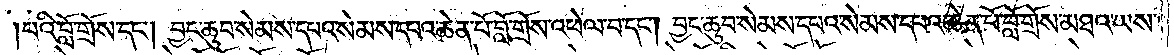པའི་བློ་གྲོས་དང༌། བྱང་ཆུབ་སེམས་དཔའ་སེམས་དཔའ་ཆེན་པོ་བློ་གྲོས་འཕེལ་བ་དང༌། བྱང་ཆུབ་སེམས་དཔའ་སེམས་དཔའ་ཆེན་པོ་བློ་གྲོས་མཐའ་ཡས་
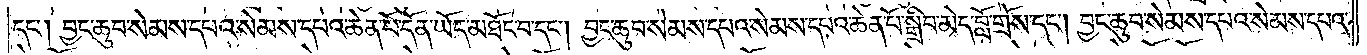དང༌། བྱང་ཆུབ་སེམས་དཔའ་སེམས་དཔའ་ཆེན་པོ་དོན་ཡོད་མཐོང་བ་དང༌། བྱང་ཆུབ་སེམས་དཔའ་སེམས་དཔའ་ཆེན་པོ་སྒྲིབ་མེད་བློ་གྲོས་དང༌། བྱང་ཆུབ་སེམས་དཔའ་སེམས་དཔའ་
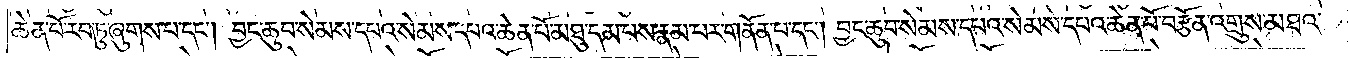ཆེན་པོ་རབ་ཏུ་ཞུགས་པ་དང༌། བྱང་ཆུབ་སེམས་དཔའ་སེམས་དཔའ་ཆེན་པོ་མཐུ་དམ་པས་རྣམ་པར་གནོན་པ་དང༌། བྱང་ཆུབ་སེམས་དཔའ་སེམས་དཔའ་ཆེན་པོ་བརྩོན་འགྲུས་མཐའ་
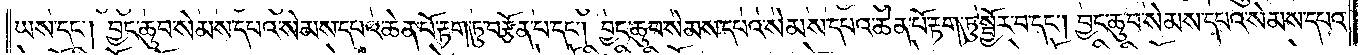ཡས་དང༌། བྱང་ཆུབ་སེམས་དཔའ་སེམས་དཔའ་ཆེན་པོ་རྟག་ཏུ་བརྩོན་པ་དང༌། བྱང་ཆུབ་སེམས་དཔའ་སེམས་དཔའ་ཆེན་པོ་རྟག་ཏུ་སྦྱོར་བ་དང༌། བྱང་ཆུབ་སེམས་དཔའ་སེམས་དཔའ་
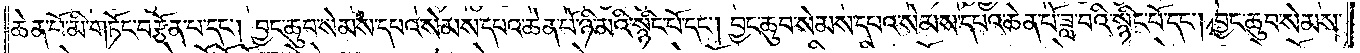ཆེན་པོ་མི་གཏོང་བརྩོན་པ་དང༌། བྱང་ཆུབ་སེམས་དཔའ་སེམས་དཔའ་ཆེན་པོ་ཉི་མའི་སྙིང་པོ་དང༌། བྱང་ཆུབ་སེམས་དཔའ་སེམས་དཔའ་ཆེན་པོ་ཟླ་བའི་སྙིང་པོ་དང༌། བྱང་ཆུབ་སེམས་
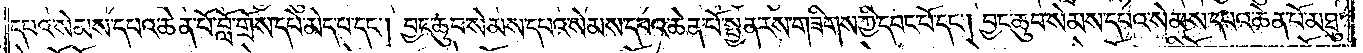དཔའ་སེམས་དཔའ་ཆེན་པོ་བློ་གྲོས་དཔེ་མེད་པ་དང༌། བྱང་ཆུབ་སེམས་དཔའ་སེམས་དཔའ་ཆེན་པོ་སྤྱན་རས་གཟིགས་ཀྱི་དབང་པོ་དང༌། བྱང་ཆུབ་སེམས་དཔའ་སེམས་དཔའ་ཆེན་པོ་མཐུ་
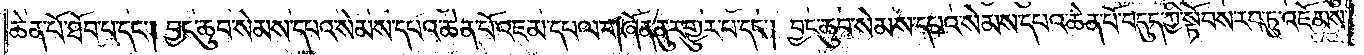ཆེན་པོ་ཐོབ་པ་དང༌། བྱང་ཆུབ་སེམས་དཔའ་སེམས་དཔའ་ཆེན་པོ་འཇམ་དཔལ་གཞོན་ནུར་གྱུར་པ་དང༌། བྱང་ཆུབ་སེམས་དཔའ་སེམས་དཔའ་ཆེན་པོ་བདུད་ཀྱི་སྟོབས་རབ་ཏུ་འཇོམས་
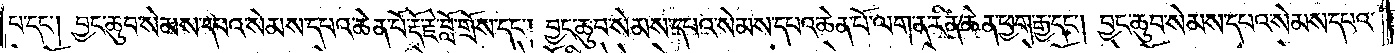པ་དང༌། བྱང་ཆུབ་སེམས་དཔའ་སེམས་དཔའ་ཆེན་པོ་རྡོ་རྗེ་བློ་གྲོས་དང༌། བྱང་ཆུབ་སེམས་དཔའ་སེམས་དཔའ་ཆེན་པོ་ལག་ན་རིན་ཆེན་ཕྱག་རྒྱ་དང༌། བྱང་ཆུབ་སེམས་དཔའ་སེམས་དཔའ་
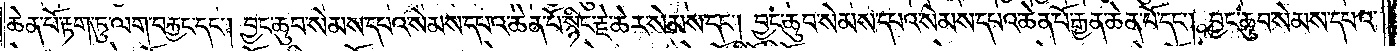ཆེན་པོ་རྟག་ཏུ་ལག་བརྐྱང་དང༌། བྱང་ཆུབ་སེམས་དཔའ་སེམས་དཔའ་ཆེན་པོ་སྙིང་རྗེ་ཆེར་སེམས་དང༌། བྱང་ཆུབ་སེམས་དཔའ་སེམས་དཔའ་ཆེན་པོ་རྒྱན་ཆེན་པོ་དང༌། བྱང་ཆུབ་སེམས་དཔའ་
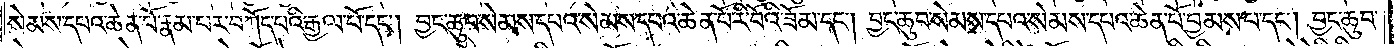སེམས་དཔའ་ཆེན་པོ་རྣམ་པར་བཀོད་པའི་རྒྱལ་པོ་དང༌། བྱང་ཆུབ་སེམས་དཔའ་སེམས་དཔའ་ཆེན་པོ་རི་བོའི་ཟོམ་དང༌། བྱང་ཆུབ་སེམས་དཔའ་སེམས་དཔའ་ཆེན་པོ་བྱམས་པ་དང༌། བྱང་ཆུབ་
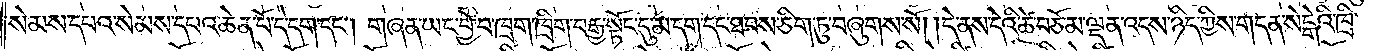སེམས་དཔའ་སེམས་དཔའ་ཆེན་པོ་དེ་དག་དང༌། གཞན་ཡང་བྱེ་བ་ཁྲག་ཁྲིག་བརྒྱ་སྟོང་དུ་མ་དག་དང་ཐབས་ཅིག་ཏུ་བཞུགས་སོ། །དེ་ནས་དེའི་ཚེ་བཅོམ་ལྡན་འདས་ཉིད་ཀྱིས་གདན་སེངྒེའི་ཁྲི་
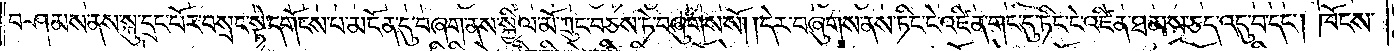བཤམས་ནས་སྐུ་དྲང་པོར་བསྲང་སྟེ་དགོངས་པ་མངོན་དུ་བཞག་ནས་སྐྱིལ་མོ་ཀྲུང་བཅས་ཏེ་བཞུགས་སོ། །དེར་བཞུགས་ནས་ཏིང་ངེ་འཛིན་གང་དུ་ཏིང་ངེ་འཛིན་ཐམས་ཅད་འདུ་བ་དང༌། ཁོངས་
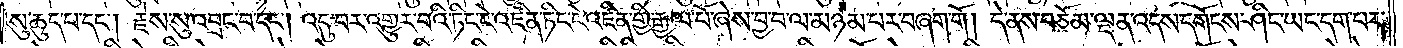སུ་ཆུད་པ་དང༌། རྗེས་སུ་འབྲང་བ་དང༌། འདུ་བར་འགྱུར་བའི་ཏིང་ངེ་འཛིན་ཏིང་ངེ་འཛིན་གྱི་རྒྱལ་པོ་ཞེས་བྱ་བ་ལ་མཉམ་པར་བཞག་གོ། དེ་ནས་བཅོམ་ལྡན་འདས་དགོངས་ཤིང་ཡང་དག་པར་
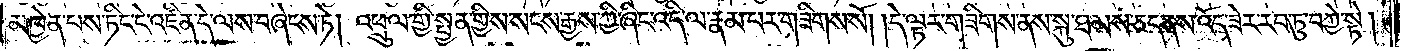མཁྱེན་པས་ཏིང་ངེ་འཛིན་དེ་ལས་བཞེངས་ཏེ། འཕྲུལ་གྱི་སྤྱན་གྱིས་སངས་རྒྱས་ཀྱི་ཞིང་འདི་ལ་རྣམ་པར་གཟིགས་སོ། །དེ་ལྟར་གཟིགས་ནས་སྐུ་ཐམས་ཅད་ནས་འོད་ཟེར་རབ་ཏུ་བཀྱེ་སྟེ།
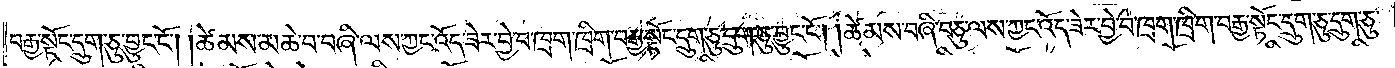བརྒྱ་སྟོང་དྲུག་ཅུ་བྱུང་ངོ༌། །ཚེམས་མཆེ་བ་བཞི་ལས་ཀྱང་འོད་ཟེར་བྱེ་བ་ཁྲག་ཁྲིག་བརྒྱ་སྟོང་དྲུག་ཅུ་དྲུག་ཅུ་བྱུང་ངོ༌། །ཚེམས་བཞི་བཅུ་ལས་ཀྱང་འོད་ཟེར་བྱེ་བ་ཁྲག་ཁྲིག་བརྒྱ་སྟོང་དྲུག་ཅུ་དྲུག་ཅུ་
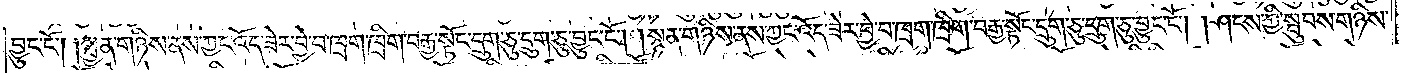བྱུང་ངོ༌། །སྤྱན་གཉིས་ནས་ཀྱང་འོད་ཟེར་བྱེ་བ་ཁྲག་ཁྲིག་བརྒྱ་སྟོང་དྲུག་ཅུ་དྲུག་ཅུ་བྱུང་ངོ༌། །སྙན་གཉིས་ནས་ཀྱང་འོད་ཟེར་བྱེ་བ་ཁྲག་ཁྲིག་བརྒྱ་སྟོང་དྲུག་ཅུ་དྲུག་ཅུ་བྱུང་ངོ༌། །ཤངས་ཀྱི་སྦུབས་གཉིས་
